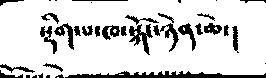སྡིག་པ་ཁ་སྐོང་ཉེན་ཆེ་།
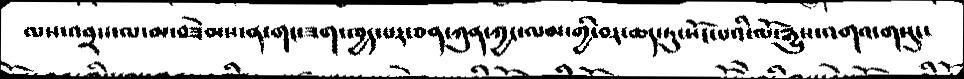ལས་འབྲས་ལ་མ་བཟེམས་ན་གང་ཟག་ཁྱད་པར་ཅན་ཀུན་ཀྱང་ལམ་གྱི་བར་ཆད་ཏུ་སོང་པའི་ལོ་རྒྱུས་འགའ་གསུང་
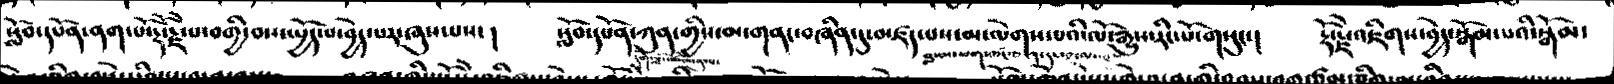སློབ་དཔོན་ནན་པོ་རྡོ་རྗེ་པ་བགྱི་བས་སྤྱོད་པ་བྱེད་པར་ཞུས་པས་།   སློབ་དཔོན་ཀུན་གྱིས་མ་གནང་བཞིན་དུ་མཛད་པས་མ་ལེགས་པའི་ལོ་རྒྱུས་རིང་པོ་གསུང་།   རྡོ་རྗེ་འཇིགས་བྱེད་སྒོམ་པའི་སྒོམ་
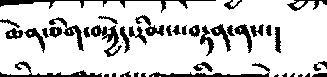ཆེན་ཅིག་བསྐྱེད་རིམས་བརྟན་ནས་།
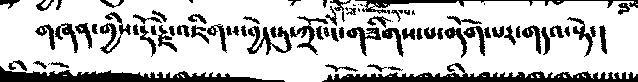གཞན་གྱིས་རྡོ་རྗེ་འཇིགས་བྱེད་ཏུ་ཀྲོང་ངེ་གཟིགས་པ་བདོག་པར་གདའ་སྟེ་།
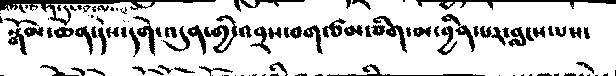སྒོམ་ཆེན་དེས་དགེ་འདུན་གྱི་འབྲས་བག་ཚམ་ཅིག་མ་བྱིན་པར་བླངས་པས་
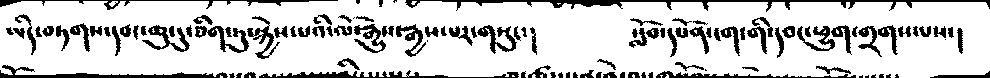ཡིད་བཏགས་དབང་ཆུ་དུ་ཅིག་ཏུ་སྐྱེས་པའི་ལོ་རྒྱུས་རྒྱས་པར་གསུང་།  སློབ་དཔོན་ངག་གི་དབང་ཕྱུག་གྲགས་པས་།
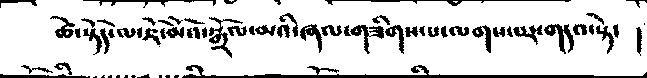ཚེ་སྟོད་ལ་ཇོ་མོའ་སྒྲོལ་མའི་ཞལ་གཟིགས་པ་ལགས་པར་གདའ་སྟེ་   །
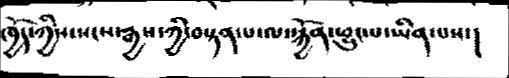ཁྱོད་ཀྱིས་སངས་རྒྱས་ཀྱི་བསྟན་པ་ལ་སྐྱོན་ཕྱུང་པ་ཡིན་པས་།
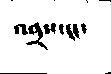འབྲས་དང་
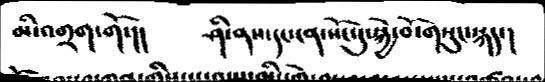མི་འགྲག་གོ་།།   ཤི་ནས་དང་ངན་སོང་དུ་སྐྱེ་བོ་གསུང་སྐད་།
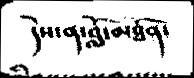དེས་ན་བློ་མཐོན་
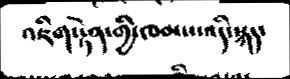འཇིག་རྟེན་གྱི་ཁམས་འདི་སྐད་
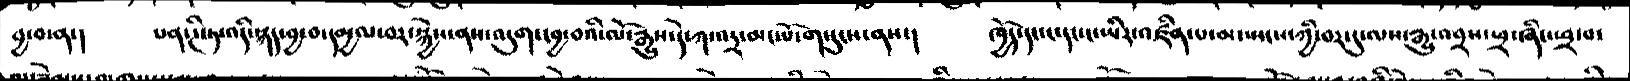བྱ་བ་ན་།  པན་ཌི་ཏ་འདི་སྐད་བྱ་བ་དམྱལ་བར་སྐྱེས་ནས་འདུག་དབྱ་བའི་ལོ་རྒྱུས་དེ་ཀ་འདྲ་མང་པོ་གསུངས་ནས་།  ཁྱོད་དང་ང་དང་ང་ཡིར་འཛིན་པ་མ་སྤངས་ཀྱི་བར་དུ་ལས་རྒྱུ་འབྲས་ཕྲ་ཞིང་ཕྲ་བ་
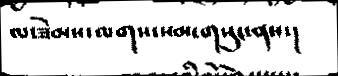ལ་ཟེམས་ལགས་སམ་གསུང་ནས་།
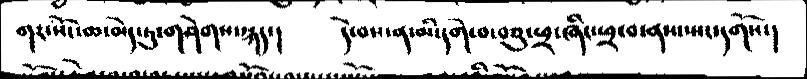གར་སོང་ཆ་མེད་ཏུ་གཤེགས་སྐད་།  དེ་བས་ན་མི་དགེ་བ་བཅུ་ཕྲ་ཞིང་ཕྲ་བ་ནས་སྤང་དགོས་།
